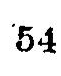54
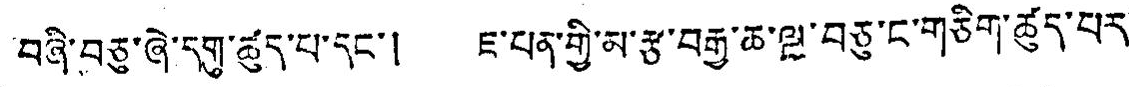བཞི་བཅུ་ཞེ་དགུ་ཚུད་པ་དང་། ཇ་པན་གྱི་མ་རྩ་བརྒྱ་ཆ་ལྔ་བཅུ་ང་གཅིག་ཚུད་པར་
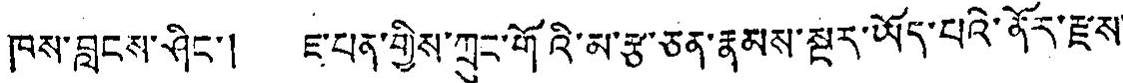ཁས་བླངས་ཤིང་། ཇ་པན་གྱིས་ཀྲུང་གོའི་མ་རྩ་ཅན་རྣམས་སྔར་ཡོད་པའི་ནོར་རྫས་
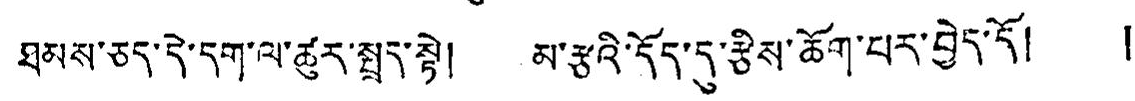ཐམས་ཅད་དེ་དག་ལ་ཚུར་སྤྲད་སྟེ། མ་རྩའི་དོད་དུ་རྩིས་ཆོག་པར་བྱེད་དོ། །
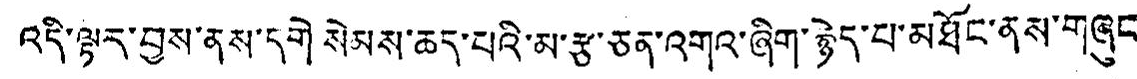འདི་ལྟར་བྱས་ནས་དགེ་སེམས་ཆད་པའི་མ་རྩ་ཅན་འགའ་ཞིག་རྙེད་པ་མཐོང་ནིས་གཞུང་
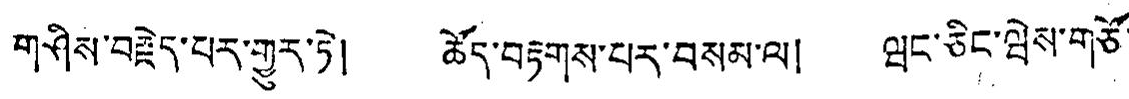གཤིས་བརྗེད་པར་གྱུར་ཏེ། ཚོད་བརྟགས་པར་བསམ་ལ། ཝང་ཅིང་ཝེས་གཅོ་
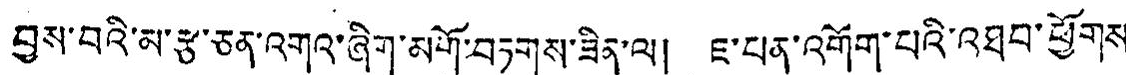བྱས་བའི་མ་རྩ་ཅན་འགའ་ཞིག་མགོ་བཏགས་ཟིན་ལ། ཇ་པན་འགོག་པའི་འཐབ་ཕྱོགས་
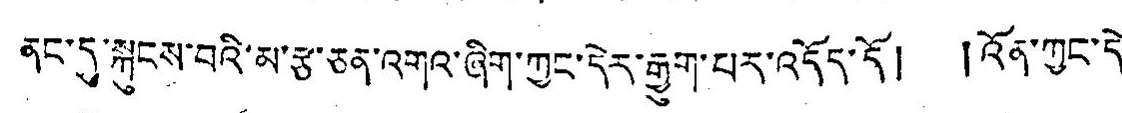ནང་དུ་སྐུངས་བའི་མ་རྩ་ཅན་འགའ་ཞིག་ཀྱང་དེར་རྒྱུག་པར་འདོད་དོ། །འོན་ཀྱང་དེ་
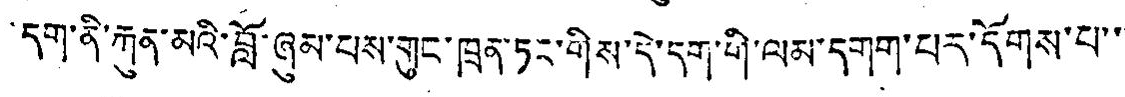དག་ནི་རྐུན་མའི་བློ་ཞུམ་པས་གུང་ཁྲན་ཏང་གིས་དེ་དག་གི་ལམ་དགག་པར་དོགས་པ་་་
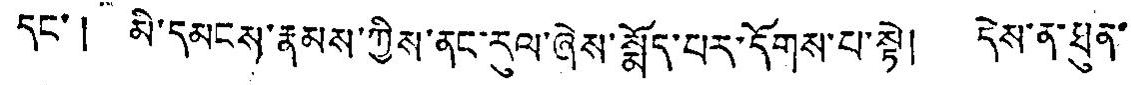དང་། མི་དམངས་རྣམས་ཀྱིས་ནང་རུལ་ཞེས་སྨོད་པར་དོགས་པ་སྟེ། དེས་ན་ཐུན་
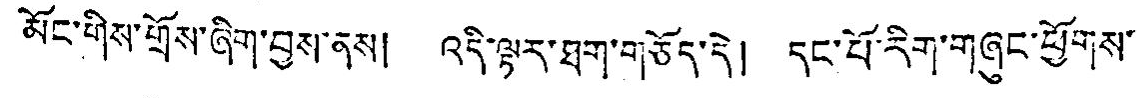མོང་གིས་གྲོས་ཞིག་བྱས་ནས། འདི་ལྟར་ཐག་གཙོད་དེ། དང་པོ་རིག་གཞུང་ཕྱོགས་
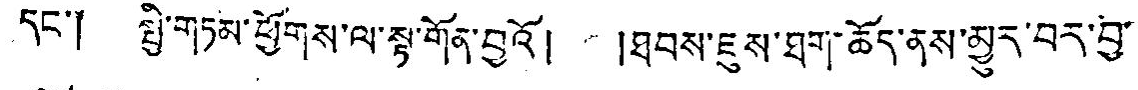དང་། སྤྱི་གཏམ་ཕྱོགས་ལ་སྟ་གོན་བྱའོ། །ཞབས་ཇུས་ཐག་ཆོད་ནས་མྱུར་བར་བྱ་
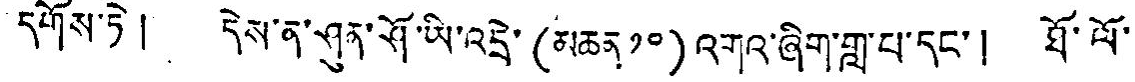དགོས་ཏེ། དེས་ན་ཤུན་ཤོ་ཡི་འདྲེ་(མཆན ༡༠)འགའ་ཞིག་གླ་པ་དང་། ཐོ་ལོ་
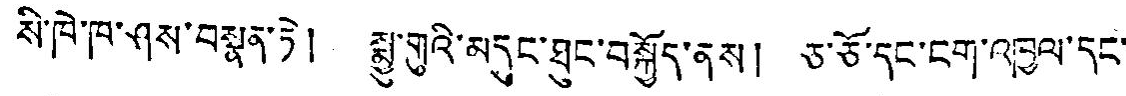སི་ཁེ་ཁ་ཤས་བསྟུན་ཏེ། སྨྱུ་གུའི་མདུང་ཐུང་བསྐྱོད་ནས། ཅ་ཅོ་དང་ངག་འཁྱལ་དང་
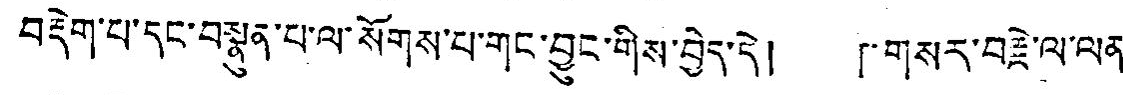བརྡེག་པ་དང་བསྣུན་པ་ལ་སོགས་པ་གང་བྱུང་གིས་བྱེད་དེ། 「གསར་བརྗེ་ལ་ལན་
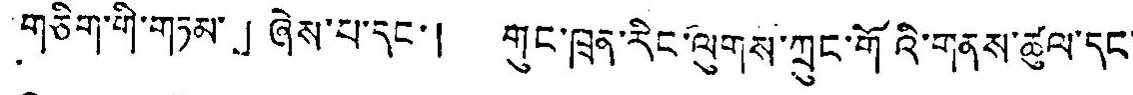གཅིག་གི་གཏམ་」ཞེས་པ་དང་། གུང་ཁྲན་རིང་ལུགས་ཀྲུང་གོའི་གནས་ཚུལ་དང་
